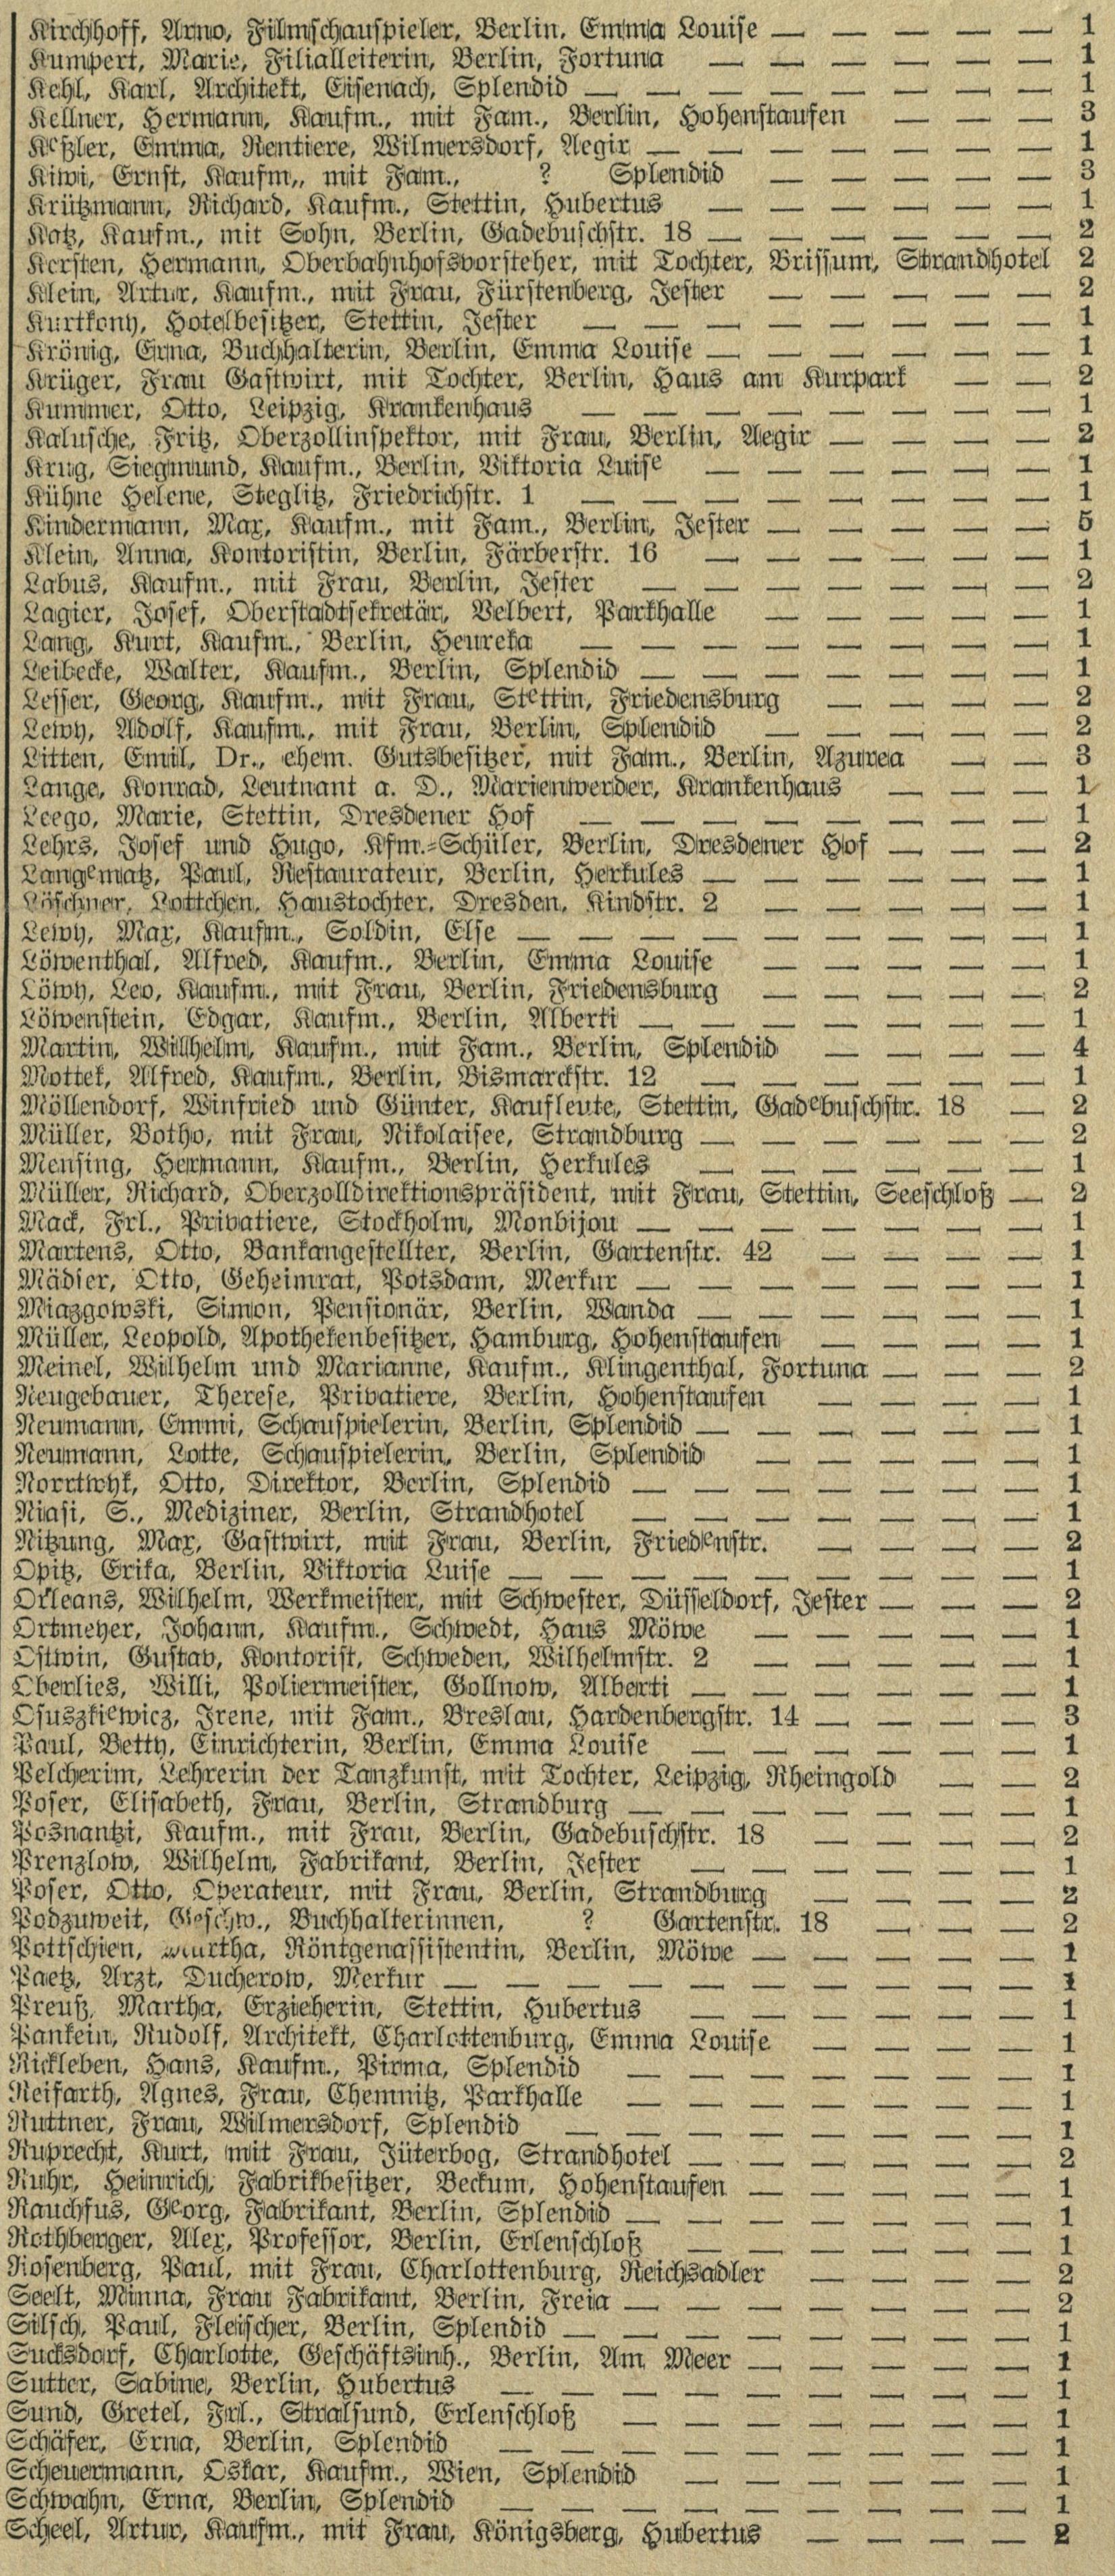Kirchhoff, Arno, Filmschauspieler, Berlin, Emma Louise | 1
Kumpert, Marie, Filialleiterin, Berlin, Fortuna | 1
Kehl, Karl, Architekt, Eisenach, Splendid | 1
Kellner, Hermann, Kaufm., mit Fam., Berlin, Hohenstaufen | 3
Keßler, Emma, Rentiere, Wilmersdorf, Aegir | 1
Kiwi, Ernst, Kaufm,, mit Fam., ? Splendid | 3
Krützmann, Richard, Kaufm., Stettin, Hubertus | 1
Katz, Kaufm., mit Sohn, Berlin, Gadebuschstr. 18 | 2
Kersten, Hermann, Oberbahnhofsvorsteher, mit Tochter, Brissum, Strandhotel | 2
Klein, Artur, Kaufm., mit Frau, Fürstenberg, Jester | 2
Kurtkony, Hotelbesitzer, Stettin, Jester | 1
Krönig, Erna, Buchhalterin, Berlin, Emma Louise | 1
Krüger, Frau Gastwirt, mit Tochter, Berlin, Haus am Kurpark | 2
Kummer, Otto, Leipzig, Krankenhaus | 1
Kalusche, Fritz, Oberzollinspektor, mit Frau, Berlin, Aegir | 2
Krug, Siegmund, Kaufm., Berlin, Viktoria Luise | 1
Kühne Helene, Steglitz, Friedrichstr. 1 | 1
Kindermann, Max, Kaufm., mit Fam., Berlin, Jester | 5
Klein, Anna, Kontoristin, Berlin, Färberstr. 16 | 1
Labus, Kaufm., mit Frau, Berlin, Jester | 2
Lagier, Josef, Oberstadtsekretär, Velbert, Parkhalle | 1
Lang, Kurt, Kaufm., Berlin, Heureka | 1
Leibecke, Walter, Kaufm., Berlin, Splendid | 1
Lesser, Georg, Kaufm., mit Frau, Stettin, Friedensburg | 2
Lewy, Adolf, Kaufm., mit Frau, Berlin, Splendid | 2
Litten, Emil, Dr., ehem. Gutsbesitzer, mit Fam., Berlin, Azurea | 3
Lange, Konrad, Leutnant a. D., Marienwerder, Krankenhaus | 1
Leego, Marie, Stettin, Dresdener Hof | 1
Lehrs, Josef und Hugo, Kfm.=Schüler, Berlin, Dresdener Hof | 2
Langematz, Paul, Restaurateur, Berlin, Herkules | 1
Löschner, Lottchen, Haustochter, Dresden, Kindstr. 2 | 1
Lewy, Max, Kaufm., Goldin, Else | 1
Löwenthal, Alfred, Kaufm., Berlin, Emma Louise | 1
Löwy, Leo, Kaufm., mit Frau, Berlin, Friedensburg | 2
Löwenstein, Edgar, Kaufm., Berlin, Alberti | 1
Martin, Wilhelm, Kaufm., mit Fam., Berlin, Splendid | 4
Mottek, Alfred, Kaufm., Berlin, Bismarckstr. 12 | 1
Möllendorf, Winfried und Günter, Kaufleute, Stettin, Gadebuschstr. 18 | 2
Müller, Botho, mit Frau, Nikolaisee, Strandburg | 2
Mensing, Hermann, Kaufm., Berlin, Herkules | 1
Müller, Richard, Oberzolldirektionspräsident, mit Frau, Stettin, Seeschloß | 2
Mack, Frl., Privatiere, Stockholm, Monbijou | 1
Martens, Otto, Bankangesteller, Berlin, Gartenstr. 42 | 1
Mädser, Otto, Geheimrat, Potsdam, Merkur | 1
Miazgowski, Simon, Pensionär, Berlin, Manda | 1
Müller, Leopold, Apothekenbesitzer, Hamburg, Hohenstaufen | 1
Meinel, Wilhelm und Marianne, Kaufm., Klingenthal, Fortuna | 2
Neugebauer, Therese, Privatiere, Berlin, Hohenstaufen | 1
Neumann, Emmi, Schauspielerin, Berlin, Splendid | 1
Neumann, Lotte, Schauspielerin, Berlin, Splendid | 1
Norrtwyk, Otto, Direktor, Berlin, Splendid | 1
Niasi, S., Mediziner, Berlin, Strandhotel | 1
Nitzung, Max, Gastwirt, mit Frau, Berlin, Friedenstr. | 2
Opitz, Erika, Berlin, Viktoria Luise | 2
Orleans, Wilhelm, Werkmeister, mit Schwester, Düsseldorf, Jester | 2
Ortmeyer, Johann, Kaufm., Schwedt, Haus Möwe | 1
Ostwin, Gustav, Kontorist, Schweden, Wilhelmstr. 2 | 1
Oberlies, Willi, Poliermeister, Gollnow, Alberi | 1
Osuszkiewiez, Irens, mit Fam., Breslau, Hardenbergstr. 14 | 3
Paul, Betty, Einrichterin, Berlin, Emma Louise | 1
Pelcherim, Lehrerin der Tanzkunst, mit Tochter, Leipzig, Rheingold | 2
Poser, Elisabeth, Frau, Berlin, Strandburg | 1
Posnantzi, Kaufm., mit Frau, Berlin, Gadebuschstr. 18 | 2
Prenzlow, Wilhelm, Fabrikant, Berlin, Jester | 1
Poser, Otto, Operateur, mit Frau, Berlin, Strandburg | 2
Podzuweit, Geschw., Buchhalterinnen, ? Gartenstr. 18 | 2
Pottschien, Martha, Röntgenassistentin, Berlin, Möwe | 1
Paetz, Arzt, Ducherow, Merkur | 1
Preuß, Martha, Erzieherin, Stettin, Hubertus | 1
Pankein, Rudolf, Architekt, Charlottenburg, Emma Louise | 1
Rickleben, Hans, Kaufm., Pirma, Splendid | 1
Reifarth, Agnes, Frau, Chemnitz, Parkhalle | 1
Ruttner, Frau, Wilmersdorf, Splendid | 1
Ruprecht, Kurt, mit Frau, Jüterbog, Strandhotel | 2
Ruhr, Heinrich, Fabrikbesitzer, Beckum, Hohenstaufen | 1
Rauchfus, Georg, Fabrikant, Berlin, Splendid | 1
Rothberger, Alex, Professor, Berlin, Erlenschloß | 1
Rosenberg, Paul, mit Frau, Charlottenburg, Reichsadler | 2
Seelt, Minna, Frau Fabrikant, Berlin, Freia | 2
Silsch, Paul, Fleischer, Berlin, Splendid | 1
Sucksdorf, Charlotte, Geschäftsinh., Berlin, Am Meer | 1
Sutter, Sabine, Berlin, Hubertus | 1
Sund, Gretel, Frl., Stralsund, Erlenschloß | 1
Schäfer, Erna, Berlin, Splendid | 1
Scheuermann, Oskar, Kaufm., Wien, Splendid | 1
Schwahn, Erna, Berlin, Splendid | 1
Scheel, Artur, Kaufm., mit Frau, Königsberg, Hubertus | 2
